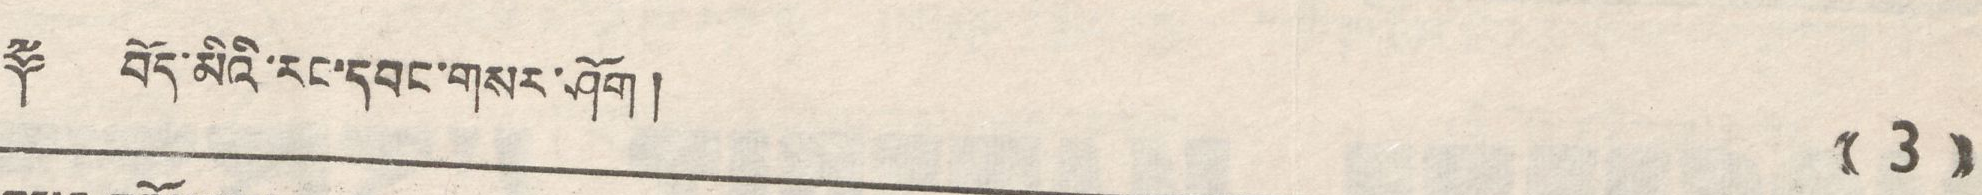༈ བོད་མིའི་རང་དབང་གསར་ཤོག ། (( 3 ))
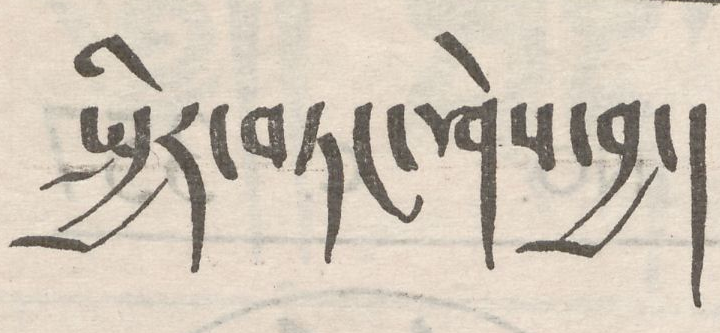སྤྱིར་བཏང་ཤེས་བྱ།
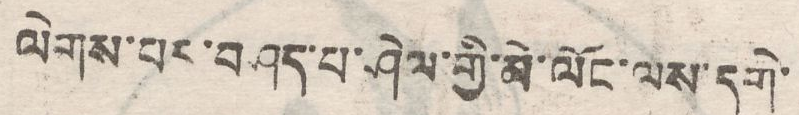ལེགས་པར་བཤད་པ་ཤེལ་གྱི་མེ་ལོང་ལས་དགེ་
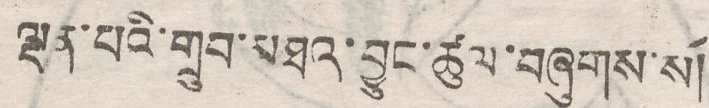ལྡན་པའི་གྲུབ་མཐའ་བྱུང་ཚུལ་བཞུགས་སོ།
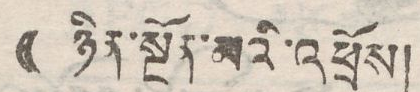(( ཉིན་སྔོན་མའི་འཕྲོས།
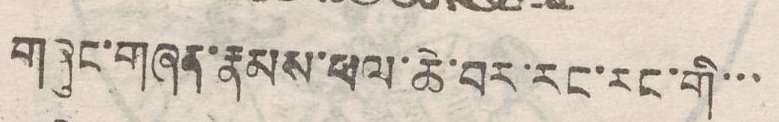གཞུང་གཞན་རྣམས་ཕལ་ཆེ་བ་རང་རང་གི་་་
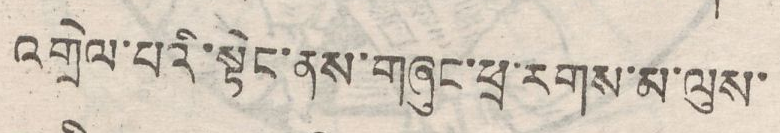འགྲེལ་པའི་སྟེང་ནས་གཞུང་ཕྲ་རགས་མ་ལུས་
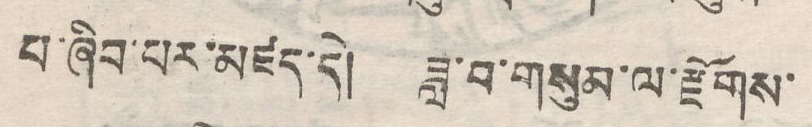པ་ཞིབ་པར་མཛད་དེ། ཟླ་བ་གསུམ་ལ་རྫོགས་
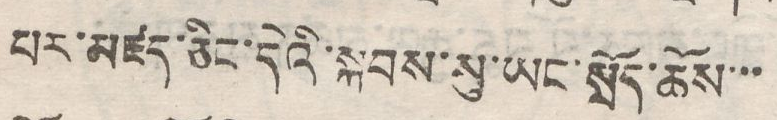པར་མཛད་ཅིང་དེའི་སྐབས་སུ་ཡང་སྲོད་ཆོས་་་
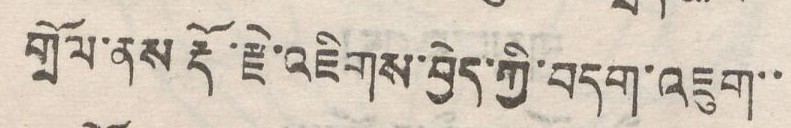གྲོལ་ནས་རྡོ་རྗེ་འཇིགས་བྱེད་ཀྱི་བདག་འཇུག་་
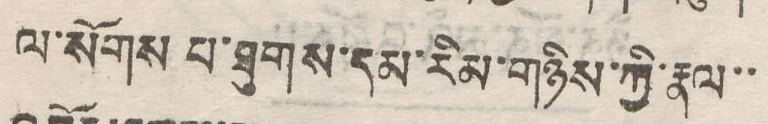ལ་སོགས པ་ཐུགས་དམ་རིམ་གཉིས་ཀྱི་རྣལ་་
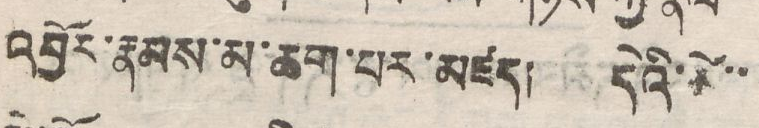འབྱོར་རྣམས་མ་ཆག་པར་མཛད། དེའི་ཚེ་་
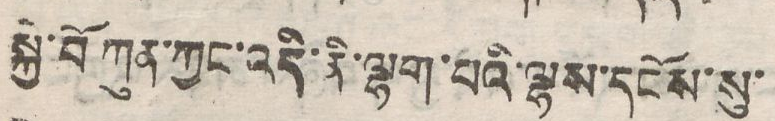སྐྱོ་བོ་ཀུན་ཀྱང་འདི་ནི་ལྷག་པའི་ལྷས་དངོས་སུ་
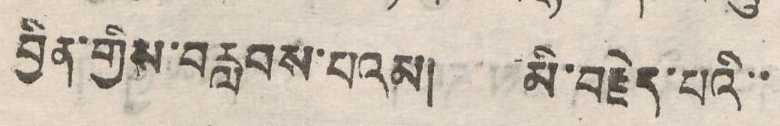བྱིན་གྱིས་བརླབས་པའམ། མི་བརྗེད་པའི་་
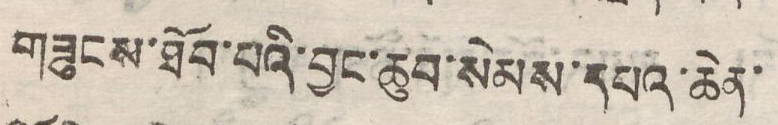གཟུངས་ཐོབ་པའི་བྱང་ཆུབ་སེམས་དཔའ་ཆེན་
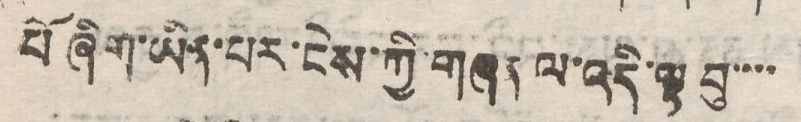པོ་ཞིག་ཡིན་པར་ངེས་ཀྱི་གཞན་ལ་འདི་ལྟ་བུ་་་་
